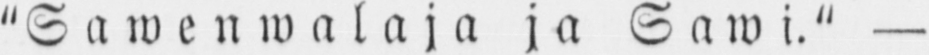"Sawenwalaja ja Sawi." —
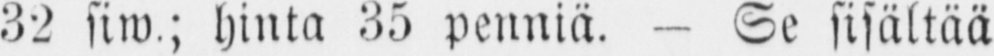32 siw.; hinta 35 penniä. — Se sisältää
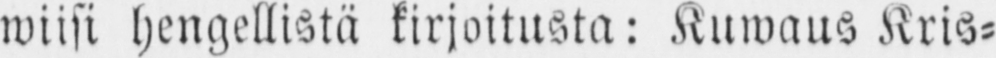wiisi hengellistä kirjoitusta: Kuwaus Kris-
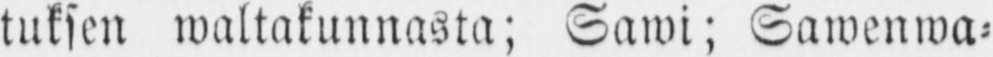tuksen waltakunnasta; Sawi; Sawenwa-
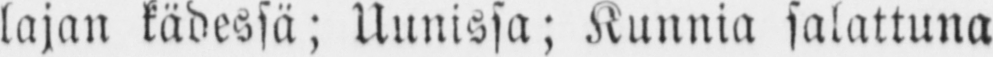lajan kädessä; Uunissa; Kunnia salattuna
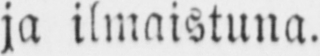ja ilmaistuna.
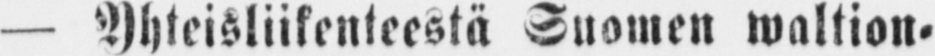— Yhteisliikenteestä Suomen waltion-
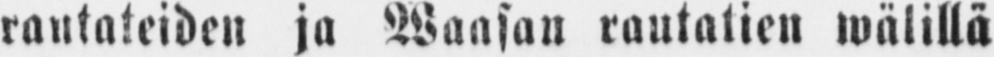rantateiden ja Waasan rautatien wälillä
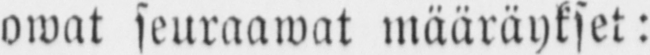owat seuraawat määräykset:
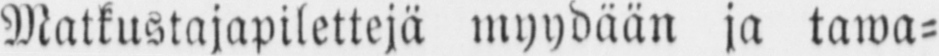Matkustajapilettejä myydään ja tawa-
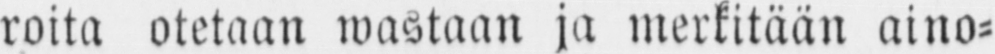roita otetaan wastaan ja merkitään aino-
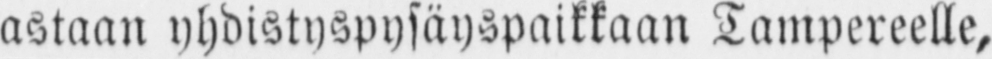astaan yhdistyspysäyspaikkaan Tampereelle,
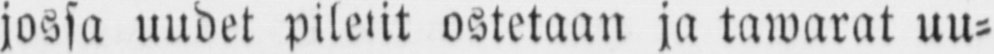jossa uudet piletit ostetaan ja tawarat uu-
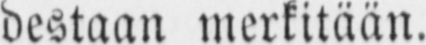destaan merkitään.
